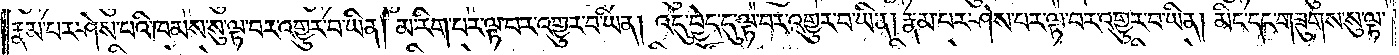རྣམ་པར་ཤེས་པའི་ཁམས་སུ་ལྟ་བར་འགྱུར་བ་ཡིན། མ་རིག་པར་ལྟ་བར་འགྱུར་བ་ཡིན། འདུ་བྱེད་དུ་ལྟ་བར་འགྱུར་བ་ཡིན། རྣམ་པར་ཤེས་པར་ལྟ་བར་འགྱུར་བ་ཡིན། མིང་དང་གཟུགས་སུ་ལྟ་
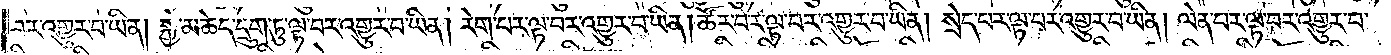བར་འགྱུར་བ་ཡིན། སྐྱེ་མཆེད་དྲུག་དུ་ལྟ་བར་འགྱུར་བ་ཡིན། རེག་པར་ལྟ་བར་འགྱུར་བ་ཡིན། ཚོར་བར་ལྟ་བར་འགྱུར་བ་ཡིན། སྲེད་པར་ལྟ་བར་འགྱུར་བ་ཡིན། ལེན་པར་ལྟ་བར་འགྱུར་བ་
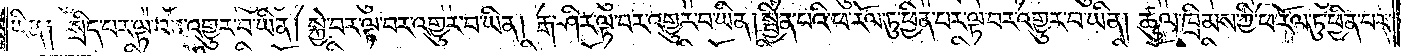ཡིན། སྲིད་པར་ལྟ་བར་འགྱུར་བ་ཡིན། སྐྱེ་བར་ལྟ་བར་འགྱུར་བ་ཡིན། རྒ་ཤིར་ལྟ་བར་འགྱུར་བ་ཡིན། སྦྱིན་པའི་ཕ་རོལ་ཏུ་ཕྱིན་པར་ལྟ་བར་འགྱུར་བ་ཡིན། ཚུལ་ཁྲིམས་ཀྱི་ཕ་རོལ་ཏུ་ཕྱིན་པར་
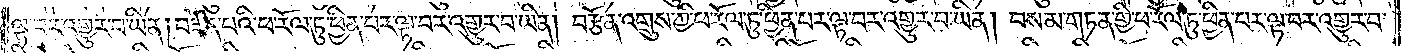ལྟ་བར་འགྱུར་བ་ཡིན། བཟོད་པའི་ཕ་རོལ་ཏུ་ཕྱིན་པར་ལྟ་བར་འགྱུར་བ་ཡིན། བརྩོན་འགྲུས་ཀྱི་ཕ་རོལ་ཏུ་ཕྱིན་པར་ལྟ་བར་འགྱུར་བ་ཡིན། བསམ་གཏན་གྱི་ཕ་རོལ་ཏུ་ཕྱིན་པར་ལྟ་བར་འགྱུར་བ་
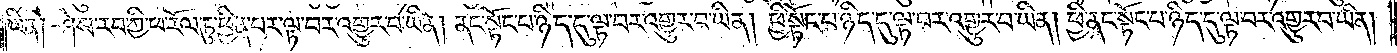ཡིན། ཤེས་རབ་ཀྱི་ཕ་རོལ་ཏུ་ཕྱིན་པར་ལྟ་བར་འགྱུར་བ་ཡིན། ནང་སྟོང་པ་ཉིད་དུ་ལྟ་བར་འགྱུར་བ་ཡིན། ཕྱི་སྟོང་པ་ཉིད་དུ་ལྟ་བར་འགྱུར་བ་ཡིན། ཕྱི་ནང་སྟོང་པ་ཉིད་དུ་ལྟ་བར་འགྱུར་བ་ཡིན།
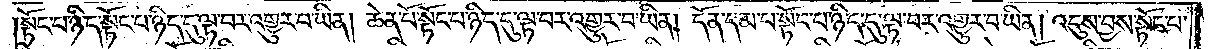སྟོང་པ་ཉིད་སྟོང་པ་ཉིད་དུ་ལྟ་བར་འགྱུར་བ་ཡིན། ཆེན་པོ་སྟོང་པ་ཉིད་དུ་ལྟ་བར་འགྱུར་བ་ཡིན། དོན་དམ་པ་སྟོང་པ་ཉིད་དུ་ལྟ་བར་འགྱུར་བ་ཡིན། འདུས་བྱས་སྟོང་པ་
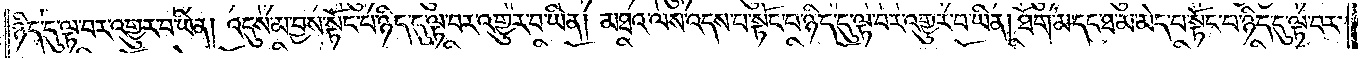ཉིད་དུ་ལྟ་བར་འགྱུར་བ་ཡིན། འདུས་མ་བྱས་སྟོང་པ་ཉིད་དུ་ལྟ་བར་འགྱུར་བ་ཡིན། མཐའ་ལས་འདས་པ་སྟོང་པ་ཉིད་དུ་ལྟ་བར་འགྱུར་བ་ཡིན། ཐོག་མ་དང་ཐ་མ་མེད་པ་སྟོང་པ་ཉིད་དུ་ལྟ་བར་
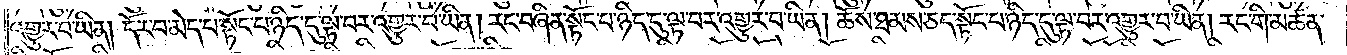འགྱུར་བ་ཡིན། དོར་བ་མེད་པ་སྟོང་པ་ཉིད་དུ་ལྟ་བར་འགྱུར་བ་ཡིན། རང་བཞིན་སྟོང་པ་ཉིད་དུ་ལྟ་བར་འགྱུར་བ་ཡིན། ཆོས་ཐམས་ཅད་སྟོང་པ་ཉིད་དུ་ལྟ་བར་འགྱུར་བ་ཡིན། རང་གི་མཚན་
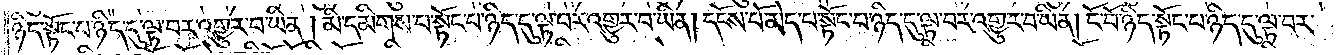ཉིད་སྟོང་པ་ཉིད་དུ་ལྟ་བར་འགྱུར་བ་ཡིན། མི་དམིགས་པ་སྟོང་པ་ཉིད་དུ་ལྟ་བར་འགྱུར་བ་ཡིན། དངོས་པོ་མེད་པ་སྟོང་པ་ཉིད་དུ་ལྟ་བར་འགྱུར་བ་ཡིན། ངོ་བོ་ཉིད་སྟོང་པ་ཉིད་དུ་ལྟ་བར་
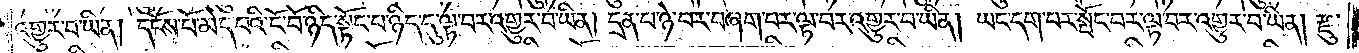འགྱུར་བ་ཡིན། དངོས་པོ་མེད་པའི་ངོ་བོ་ཉིད་སྟོང་པ་ཉིད་དུ་ལྟ་བར་འགྱུར་བ་ཡིན། དྲན་པ་ཉེ་བར་བཞག་པར་ལྟ་བར་འགྱུར་བ་ཡིན། ཡང་དག་པར་སྤོང་བར་ལྟ་བར་འགྱུར་བ་ཡིན། རྫུ་
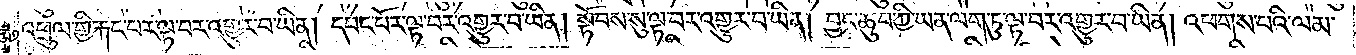འཕྲུལ་གྱི་རྐང་པར་ལྟ་བར་འགྱུར་བ་ཡིན། དབང་པོར་ལྟ་བར་འགྱུར་བ་ཡིན། སྟོབས་སུ་ལྟ་བར་འགྱུར་བ་ཡིན། བྱང་ཆུབ་ཀྱི་ཡན་ལག་ཏུ་ལྟ་བར་འགྱུར་བ་ཡིན། འཕགས་པའི་ལམ་
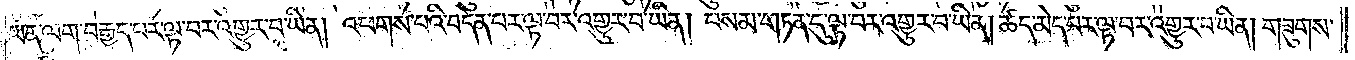ཡན་ལག་བརྒྱད་པར་ལྟ་བར་འགྱུར་བ་ཡིན། འཕགས་པའི་བདེན་པར་ལྟ་བར་འགྱུར་བ་ཡིན། བསམ་གཏན་དུ་ལྟ་བར་འགྱུར་བ་ཡིན། ཚད་མེད་པར་ལྟ་བར་འགྱུར་བ་ཡིན། གཟུགས་
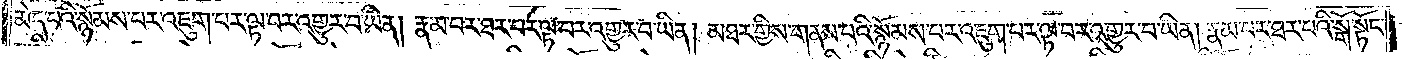མེད་པའི་སྙོམས་པར་འཇུག་པར་ལྟ་བར་འགྱུར་བ་ཡིན། རྣམ་པར་ཐར་པར་ལྟ་བར་འགྱུར་བ་ཡིན། མཐར་གྱིས་གནས་པའི་སྙོམས་པར་འཇུག་པར་ལྟ་བར་འགྱུར་བ་ཡིན། རྣམ་པར་ཐར་པའི་སྒོ་སྟོང་
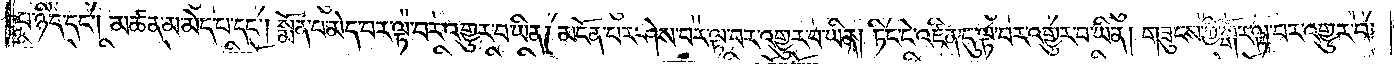པ་ཉིད་དང༌། མཚན་མ་མེད་པ་དང༌། སྨོན་པ་མེད་པར་ལྟ་བར་འགྱུར་བ་ཡིན། མངོན་པར་ཤེས་པར་ལྟ་བར་འགྱུར་བ་ཡིན། ཏིང་ངེ་འཛིན་དུ་ལྟ་བར་འགྱུར་བ་ཡིན། གཟུངས་ཀྱི་སྒོར་ལྟ་བར་འགྱུར་བ་
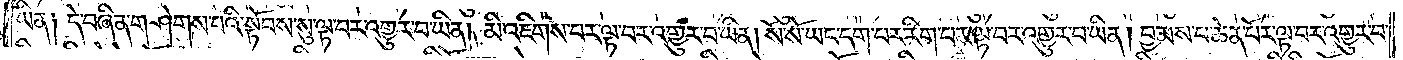ཡིན། དེ་བཞིན་གཤེགས་པའི་སྟོབས་སུ་ལྟ་བར་འགྱུར་བ་ཡིན། མི་འཇིགས་པར་ལྟ་བར་འགྱུར་བ་ཡིན། སོ་སོ་ཡང་དག་པར་རིག་པར་ལྟ་བར་འགྱུར་བ་ཡིན། བྱམས་པ་ཆེན་པོར་ལྟ་བར་འགྱུར་བ་
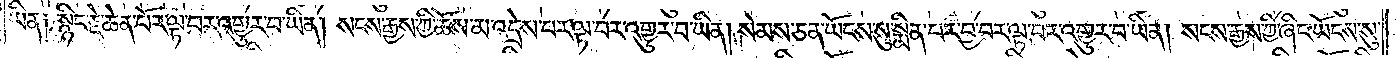ཡིན༑ སྙིང་རྗེ་ཆེན་པོར་ལྟ་བར་འགྱུར་བ་ཡིན། སངས་རྒྱས་ཀྱི་ཆོས་མ་འདྲེས་པར་ལྟ་བར་འགྱུར་བ་ཡིན། སེམས་ཅན་ཡོངས་སུ་སྨིན་པར་བྱ་བར་ལྟ་བར་འགྱུར་བ་ཡིན། སངས་རྒྱས་ཀྱི་ཞིང་ཡོངས་སུ་
